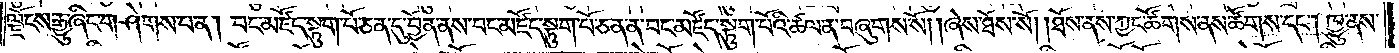ལྗོངས་རྒྱུ་ཞིང་གཤེགས་པ་ན། བང་མཛོད་སྟུག་པོ་ཅན་དུ་བྱོན་ནས་བང་མཛོད་སྟུག་པོ་ཅན་ན་བང་མཛོད་སྟུག་པོའི་ཚལ་ན་བཞུགས་སོ། །ཞེས་ཐོས་སོ། །ཐོས་ནས་ཀྱང་ཚོགས་ནས་ཚོགས་དང༌། ཁྱུ་ནས་
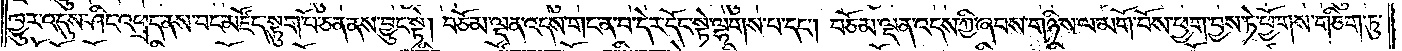ཁྱུར་འདུས་ཤིང་འཕྲད་ནས་བང་མཛོད་སྟུག་པོ་ཅན་ནས་བྱུང་སྟེ། བཅོམ་ལྡན་འདས་གང་ན་བ་དེར་དོང་སྟེ་ལྷགས་པ་དང༌། བཅོམ་ལྡན་འདས་ཀྱི་ཞབས་གཉིས་ལ་མགོ་བོས་ཕྱག་བྱས་ཏེ་ཕྱོགས་གཅིག་ཏུ་
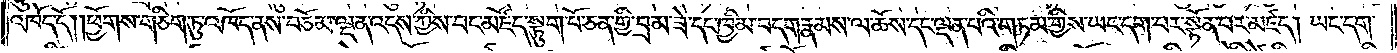འཁོད་དོ། །ཕྱོགས་གཅིག་ཏུ་འཁོད་ནས་བཅོམ་ལྡན་འདས་ཀྱིས་བང་མཛོད་སྟུག་པོ་ཅན་གྱི་བྲམ་ཟེ་དང་ཁྱིམ་བདག་རྣམས་ལ་ཆོས་དང་ལྡན་པའི་གཏམ་གྱིས་ཡང་དག་པར་སྟོན་པར་མཛད། ཡང་དག་
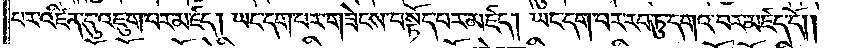པར་འཛིན་དུ་འཇུག་པར་མཛད། ཡང་དག་པར་གཟེངས་བསྟོད་པར་མཛད། ཡང་དག་པར་རབ་ཏུ་དགའ་བར་མཛད་དོ༎
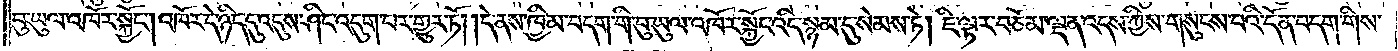བུ་ཡུལ་འཁོར་སྐྱོང༌། འཁོར་དེ་ཉིད་དུ་འདུས་ཤིང་འདུག་པར་གྱུར་ཏོ། །དེ་ནས་ཁྱིམ་བདག་གི་བུ་ཡུལ་འཁོར་སྐྱོང་འདི་སྙམ་དུ་སེམས་ཏེ། ཇི་ལྟར་བཅོམ་ལྡན་འདས་ཀྱིས་གསུངས་བའི་དོན་བདག་གིས་
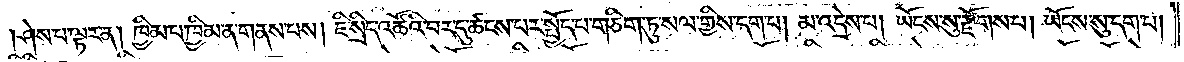ཤེས་པ་ལྟར་ན། ཁྱིམ་པ་ཁྱིམ་ན་གནས་པས། ཇི་སྲིད་འཚོའི་བར་དུ་ཚངས་པར་སྤྱོད་པ་གཅིག་ཏུ་སལ་གྱིས་དག་པ། མ་འདྲེས་པ། ཡོངས་སུ་རྫོགས་པ། ཡོངས་སུ་དག་པ།
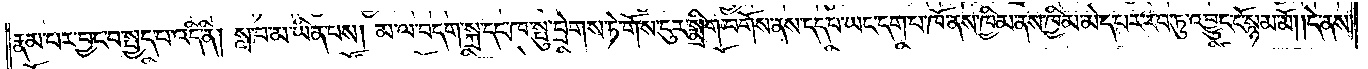རྣམ་པར་བྱང་བ་སྤྱད་པ་འདི་ནི། སླ་བ་མ་ཡིན་པས། མ་ལ་བདག་སྐྲ་དང་ཁ་སྤུ་བྲེགས་ཏེ་གོས་ངུར་སྨྲིག་བགོས་ནས་དད་པ་ཡང་དག་པ་ཁོ་ནས་ཁྱིམ་ནས་ཁྱིམ་མེད་པར་རབ་ཏུ་འབྱུང་ངོ་སྙམ་མོ། །དེ་ནས་
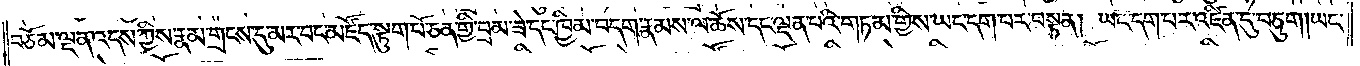བཅོམ་ལྡན་འདས་ཀྱིས་རྣམ་གྲངས་དུ་མར་བང་མཛོད་སྟུག་པོ་ཅན་གྱི་བྲམ་ཟེ་དང་ཁྱིམ་བདག་རྣམས་ལ་ཆོས་དང་ལྡན་པའི་གཏམ་གྱིས་ཡང་དག་པར་བསྟན། ཡང་དག་པར་འཛིན་དུ་བཅུག །ཡང་
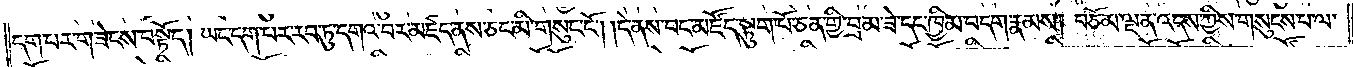དག་པར་གཟེངས་བསྟོད། ཡང་དག་པར་རབ་ཏུ་དགའ་བར་མཛད་ནས་ཅང་མི་གསུང་ངོ༌། །དེ་ནས་བང་མཛོད་སྟུག་པོ་ཅན་གྱི་བྲམ་ཟེ་དང་ཁྱིམ་བདག་རྣམས། བཅོམ་ལྡན་འདས་ཀྱིས་གསུངས་པ་ལ་
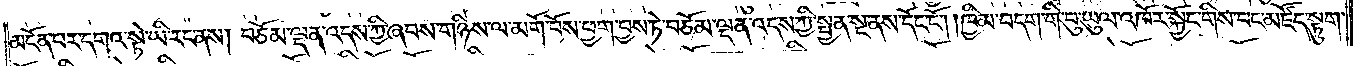མངོན་པར་དགའ་སྟེ་ཡི་རང་ནས། བཅོམ་ལྡན་འདས་ཀྱི་ཞབས་གཉིས་ལ་མགོ་བོས་ཕྱག་བྱས་ཏེ་བཅོམ་ལྡན་འདས་ཀྱི་སྤྱན་སྔ་ནས་དོང་ངོ༌། །ཁྱིམ་བདག་གི་བུ་ཡུལ་འཁོར་སྐྱོང་གིས་བང་མཛོད་སྟུག་
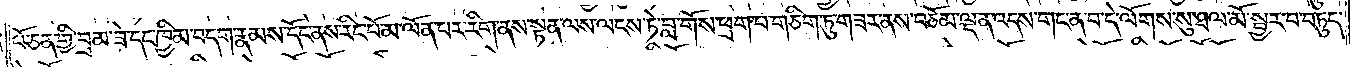པོ་ཅན་གྱི་བྲམ་ཟེ་དང་ཁྱིམ་བདག་རྣམས་དོང་ནས་རིང་པོ་མ་ལོན་པར་རིག་ནས་སྟན་ལས་ལངས་ཏེ་བླ་གོས་ཕྲག་པ་གཅིག་ཏུ་གཟར་ནས་བཅོམ་ལྡན་འདས་གང་ན་བ་དེ་ལོགས་སུ་ཐལ་མོ་སྦྱར་བ་བཏུད་
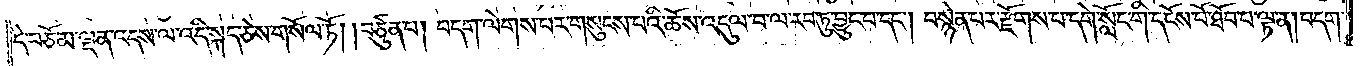དེ་བཅོམ་ལྡན་འདས་ལ་འདི་སྐད་ཅེས་གསོལ་ཏོ། །བཙུན་པ། བདག་ལེགས་པར་གསུངས་པའི་ཆོས་འདུལ་བ་ལ་རབ་ཏུ་བྱུང་བ་དང༌། བསྙེན་པར་རྫོགས་པ་དགེ་སློང་གི་དངོས་པོ་ཐོབ་པ་ལྟ་ན། བདག་
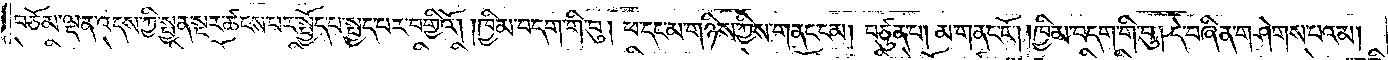བཅོམ་ལྡན་འདས་ཀྱི་སྤྱན་སྔར་ཚངས་པར་སྤྱོད་པ་སྤྱད་པར་བགྱིའོ། །ཁྱིམ་བདག་གི་བུ། ཕ་དང་མ་གཉིས་ཀྱིས་གནང་ངམ། བཙུན་པ། མ་གནང་ངོ༌། །ཁྱིམ་བདག་གི་བུ། དེ་བཞིན་གཤེགས་པའམ།
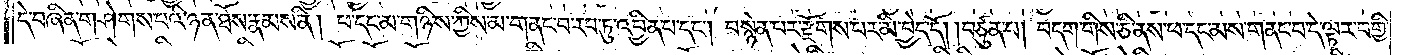དེ་བཞིན་གཤེགས་པའི་ཉན་ཐོས་རྣམས་ནི། ཕ་དང་མ་གཉིས་ཀྱིས་མ་གནང་བ་རབ་ཏུ་འབྱིན་པ་དང༌། བསྙེན་པར་རྫོགས་པར་མི་བྱེད་དོ། །བཙུན་པ། བདག་གིས་ཅི་ནས་ཕ་དང་མས་གནང་བ་དེ་ལྟར་བགྱི་
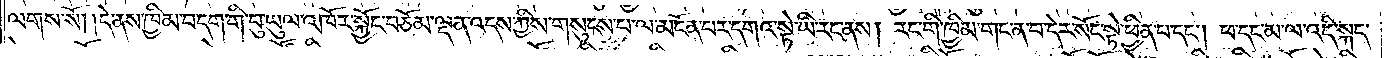ལགས་སོ། །དེ་ནས་ཁྱིམ་བདག་གི་བུ་ཡུལ་འཁོར་སྐྱོང་བཅོམ་ལྡན་འདས་ཀྱིས་གསུངས་པ་ལ་མངོན་པར་དགའ་སྟེ་ཡི་རང་ནས། རང་གི་ཁྱིམ་གང་ན་བ་དེར་སོང་སྟེ་ཕྱིན་པ་དང༌། ཕ་དང་མ་ལ་འདི་སྐད་
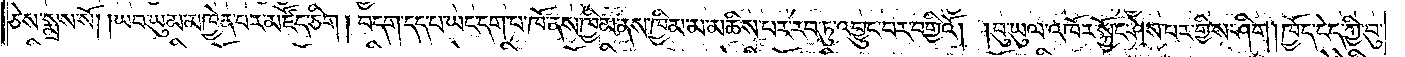ཅེས་སྨྲས་སོ། །ཡབ་ཡུམ་མཁྱེན་པར་མཛོད་ཅིག །བདག་དད་པ་ཡང་དག་པ་ཁོ་ནས་ཁྱིམ་ནས་ཁྱིམ་མ་མཆིས་པར་རབ་ཏུ་འབྱུང་བར་བགྱིའོ། །བུ་ཡུལ་འཁོར་སྐྱོང་ཤེས་པར་གྱིས་ཤིག །ཁྱོད་ངེད་ཀྱི་བུ་
